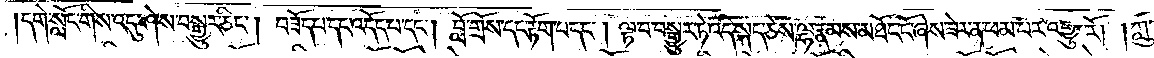དགེ་སློང་གིས་འདུ་ཤེས་བསྒྱུར་ཅིང༌། བཟོད་པ་དང་འདོད་པ་དང༌། བློ་གྲོས་དང་རྟོག་པ་དང༌། ལྟ་བ་བསྒྱུར་ཏེ་འདི་སྐད་ཅེས་ལྷ་རྣམས་མཐོང་ངོ་ཞེས་ཟེར་ན་ཕམ་པར་འགྱུར་རོ། །ཀླུ་
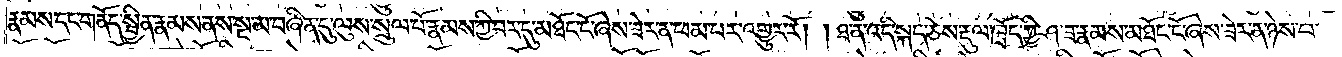རྣམས་དང་གནོད་སྦྱིན་རྣམས་ནས་སྔ་མ་བཞིན་དུ་ལུས་སྲུལ་པོ་རྣམས་ཀྱི་བར་དུ་མཐོང་ངོ་ཞེས་ཟེར་ན་ཕམ་པར་འགྱུར་རོ། །ཐ་ན་འདི་སྐད་ཅེས་རྡུལ་ཁྲོད་ཀྱི་ཤ་ཟ་རྣམས་མཐོང་ངོ་ཞེས་ཟེར་ན་ཉེས་པ་
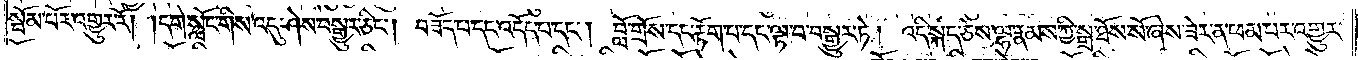སྦོམ་པོར་འགྱུར་རོ། །དགེ་སློང་གིས་འདུ་ཤེས་བསྒྱུར་ཅིང༌། བཟོད་པ་དང་འདོད་པ་དང༌། བློ་གྲོས་དང་རྟོག་པ་དང་ལྟ་བ་བསྒྱུར་ཏེ། འདི་སྐད་ཅེས་ལྷ་རྣམས་ཀྱི་སྒྲ་ཐོས་སོ་ཞེས་ཟེར་ན་ཕམ་པར་འགྱུར་
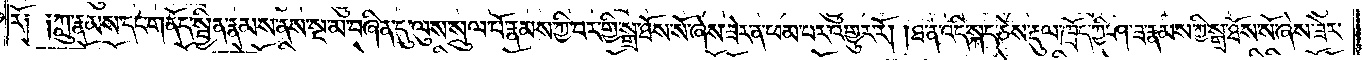རོ༑ ༑ཀླུ་རྣམས་དང་གནོད་སྦྱིན་རྣམས་ནས་སྔ་མ་བཞིན་དུ་ལུས་སྲུལ་པོ་རྣམས་ཀྱི་བར་གྱི་སྒྲ་ཐོས་སོ་ཞེས་ཟེར་ན་ཕམ་པར་འགྱུར་རོ། །ཐ་ན་འདི་སྐད་ཅེས་རྡུལ་ཁྲོད་ཀྱི་ཤ་ཟ་རྣམས་ཀྱི་སྒྲ་ཐོས་སོ་ཞེས་ཟེར་
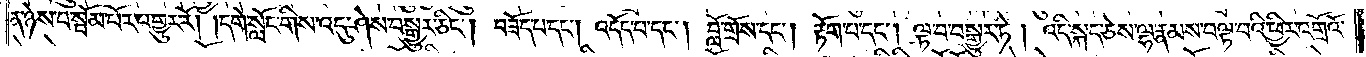ན་ཉེས་པ་སྦོམ་པོར་འགྱུར་རོ། །དགེ་སློང་གིས་འདུ་ཤེས་བསྒྱུར་ཅིང༌། བཟོད་པ་དང༌། འདོད་པ་དང༌། བློ་གྲོས་དང༌། རྟོག་པ་དང༌། ལྟ་བ་བསྒྱུར་ཏེ། འདི་སྐད་ཅེས་ལྷ་རྣམས་བལྟ་བའི་ཕྱིར་འགྲོའོ་
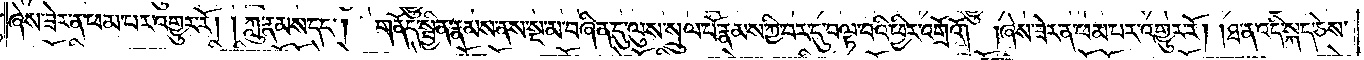ཞེས་ཟེར་ན་ཕམ་པར་འགྱུར་རོ། །ཀླུ་རྣམས་དང༌། གནོད་སྦྱིན་རྣམས་ནས་སྔ་མ་བཞིན་དུ་ལུས་སྲུལ་པོ་རྣམས་ཀྱི་བར་དུ་བལྟ་བའི་ཕྱིར་འགྲོའོ། །ཞེས་ཟེར་ན་ཕམ་པར་འགྱུར་རོ། །ཐ་ན་འདི་སྐད་ཅེས་
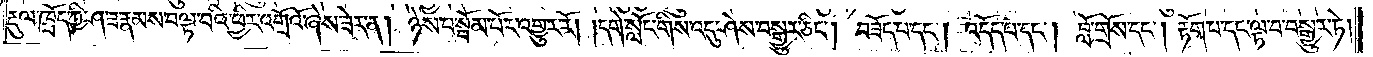རྡུལ་ཁྲོད་ཀྱི་ཤ་ཟ་རྣམས་བལྟ་བའི་ཕྱིར་འགྲོའོ་ཞེས་ཟེར་ན། ཉེས་པ་སྦོམ་པོར་འགྱུར་རོ། །དགེ་སློང་གིས་འདུ་ཤེས་བསྒྱུར་ཅིང༌། བཟོད་པ་དང༌། འདོད་པ་དང༌། བློ་གྲོས་དང༌། རྟོག་པ་དང་ལྟ་བ་བསྒྱུར་ཏེ།
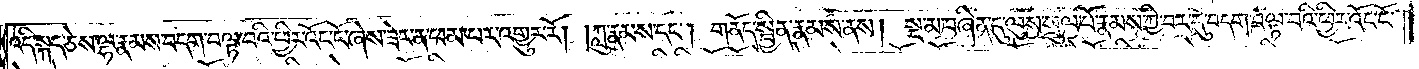འདི་སྐད་ཅེས་ལྷ་རྣམས་བདག་བལྟ་བའི་ཕྱིར་འོང་ངོ་ཞེས་ཟེར་ན་ཕམ་པར་འགྱུར་རོ། །ཀླུ་རྣམས་དང༌། གནོད་སྦྱིན་རྣམས་ནས། སྔ་མ་བཞིན་དུ་ལུས་སྲུལ་པོ་རྣམས་ཀྱི་བར་དུ་བདག་བལྟ་བའི་ཕྱིར་འོང་ངོ་
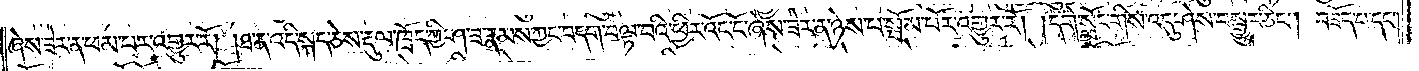ཞེས་ཟེར་ན་ཕམ་པར་འགྱུར་རོ། །ཐ་ན་འདི་སྐད་ཅེས་རྡུལ་ཁྲོད་ཀྱི་ཤ་ཟ་རྣམས་ཀྱང་བདག་བལྟ་བའི་ཕྱིར་འོང་ངོ་ཞེས་ཟེར་ན་ཉེས་པ་སྦོམ་པོར་འགྱུར་རོ། །དགེ་སློང་གིས་འདུ་ཤེས་བསྒྱུར་ཅིང༌། བཟོད་པ་དང༌།
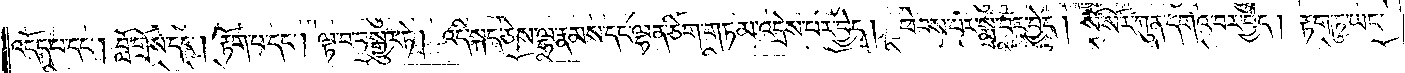འདོད་པ་དང༌། བློ་གྲོས་དང༌། རྟོག་པ་དང༌། ལྟ་བ་བསྒྱུར་ཏེ། འདི་སྐད་ཅེས་ལྷ་རྣམས་དང་ལྷན་ཅིག་གཏམ་འདྲེས་པར་བྱེད། ཕེབས་པར་སྨྲ་བར་བྱེད། སོ་སོར་ཀུན་དགའ་བར་བྱེད། རྟག་ཏུ་ཡང་
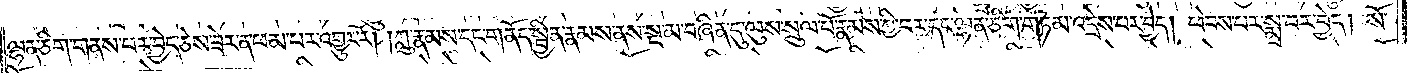ལྷན་ཅིག་གནས་པར་བྱེད་ཅེས་ཟེར་ན་ཕམ་པར་འགྱུར་རོ། །ཀླུ་རྣམས་དང་གནོད་སྦྱིན་རྣམས་ནས་སྔ་མ་བཞིན་དུ་ལུས་སྲུལ་པོ་རྣམས་ཀྱི་བར་དང་ལྷན་ཅིག་གཏམ་འདྲེས་པར་བྱེད། ཕེབས་པར་སྨྲ་བར་བྱེད། སོ་
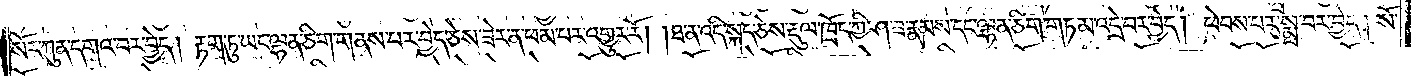སོར་ཀུན་དགའ་བར་བྱེད། རྟག་ཏུ་ཡང་ལྷན་ཅིག་གནས་པར་བྱེད་ཅེས་ཟེར་ན་ཕམ་པར་འགྱུར་རོ། །ཐ་ན་འདི་སྐད་ཅེས་རྡུལ་ཁྲོད་ཀྱི་ཤ་ཟ་རྣམས་དང་ལྷན་ཅིག་གཏམ་འདྲེ་བར་བྱེད། ཕེབས་པར་སྨྲ་བར་བྱེད། སོ་
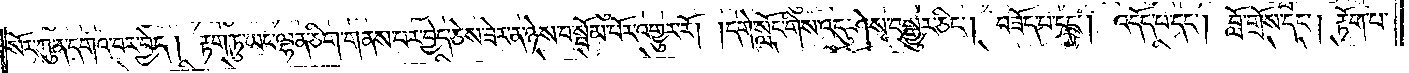སོར་ཀུན་དགའ་བར་བྱེད། རྟག་ཏུ་ཡང་ལྷན་ཅིག་གནས་པར་བྱེད་ཅེས་ཟེར་ན་ཉེས་པ་སྦོམ་པོར་འགྱུར་རོ། །དགེ་སློང་གིས་འདུ་ཤེས་བསྒྱུར་ཅིང༌། བཟོད་པ་དང༌། འདོད་པ་དང༌། བློ་གྲོས་དང༌། རྟོག་པ་
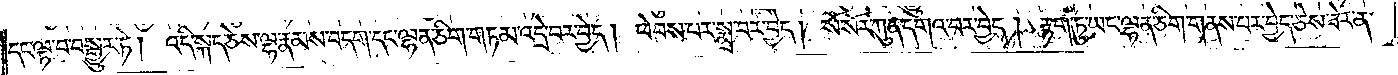དང་ལྟ་བ་བསྒྱུར་ཏེ། འདི་སྐད་ཅེས་ལྷ་རྣམས་བདག་དང་ལྷན་ཅིག་གཏམ་འདྲེ་བར་བྱེད། ཕེབས་པར་སྨྲ་བར་བྱེད། སོ་སོར་ཀུན་དགའ་བར་བྱེད། རྟག་ཏུ་ཡང་ལྷན་ཅིག་གནས་པར་བྱེད་ཅེས་ཟེར་ན་
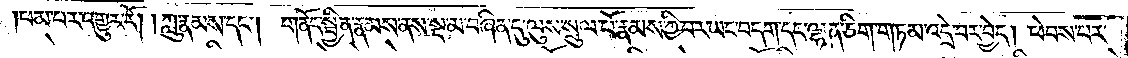ཕམ་པར་འགྱུར་རོ། །ཀླུ་རྣམས་དང༌། གནོད་སྦྱིན་རྣམས་ནས་སྔ་མ་བཞིན་དུ་ལུས་སྲུལ་པོ་རྣམས་ཀྱི་བར་ཡང་བདག་དང་ལྷན་ཅིག་གཏམ་འདྲེ་བར་བྱེད། ཕེབས་པར་
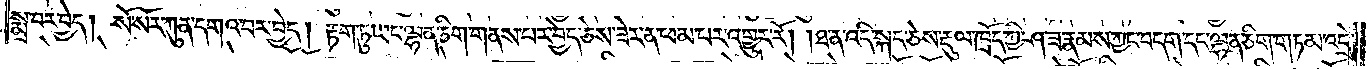སྨྲ་བར་བྱེད། སོ་སོར་ཀུན་དགའ་བར་བྱེད། རྟག་ཏུ་ཡང་ལྷན་ཅིག་གནས་པར་བྱེད་ཅེས་ཟེར་ན་ཕམ་པར་འགྱུར་རོ། །ཐ་ན་འདི་སྐད་ཅེས་རྡུལ་ཁྲོད་ཀྱི་ཤ་ཟ་རྣམས་ཀྱང་བདག་དང་ལྷན་ཅིག་གཏམ་འདྲེ་
